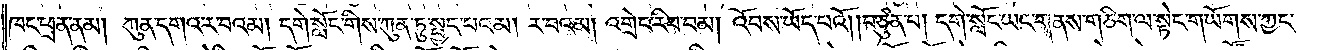ཁང་ཕྲན་ནམ། ཀུན་དགའ་ར་བའམ། དགེ་སློང་གིས་ཀུན་ཏུ་སྤྱད་པའམ། ར་བའམ། འགྲེང་རིབ་བམ། འོབས་ཡོད་པའོ། །བཙུན་པ། དགེ་སློང་ཡང་གནས་གཅིག་ལ་སྟེང་གཡོགས་ཀྱང་
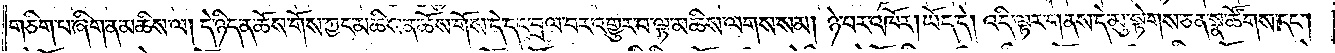གཅིག་པ་ཞིག་ན་མཆིས་ལ། དེ་ཉིད་ན་ཆོས་གོས་ཀྱང་མཆིས་ན་ཆོས་གོས་དེ་དང་བྲལ་བར་འགྱུར་བ་ལྟ་མཆིས་ལགས་སམ། ཉེ་བར་འཁོར། ཡོད་དེ། འདི་ལྟར་གནས་དེ་མུ་སྟེགས་ཅན་སྣ་ཚོགས་དང༌།
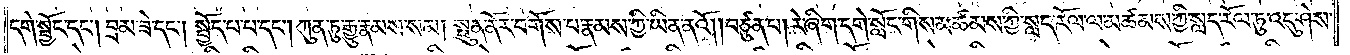དགེ་སྦྱོང་དང༌། བྲམ་ཟེ་དང༌། སྤྱོད་པ་དང༌། ཀུན་ཏུ་རྒྱུ་རྣམས་སམ། སྤུན་ནོར་བགོས་པ་རྣམས་ཀྱི་ཡིན་ནའོ། །བཙུན་པ། རེ་ཞིག་དགེ་སློང་གིས་མཚམས་ཀྱི་སླད་རོལ་ལ་མཚམས་ཀྱི་སླད་རོལ་ཏུ་འདུ་ཤེས་
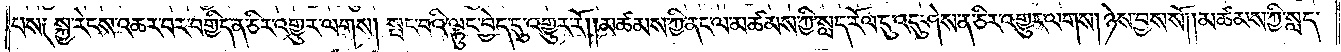པས༑ སྐྱ་རེངས་འཆར་བར་བགྱིད་ན་ཅིར་འགྱུར་ལགས། སྤང་བའི་ལྟུང་བྱེད་དུ་འགྱུར་རོ། །མཚམས་ཀྱི་ནང་ལ་མཚམས་ཀྱི་སླད་རོལ་དུ་འདུ་ཤེས་ན་ཅིར་འགྱུར་ལགས། ཉེས་བྱས་སོ། །མཚམས་ཀྱི་སླད་
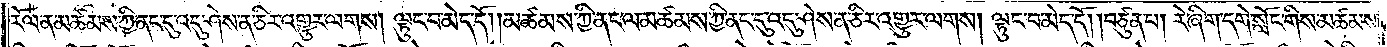རོལ་ན་མཚམས་ཀྱི་ནང་དུ་འདུ་ཤེས་ན་ཅིར་འགྱུར་ལགས། ལྟུང་བ་མེད་དོ། །མཚམས་ཀྱི་ནང་ལ་མཚམས་ཀྱི་ནང་དུ་འདུ་ཤེས་ན་ཅིར་འགྱུར་ལགས། ལྟུང་བ་མེད་དོ། །བཙུན་པ། རེ་ཞིག་དགེ་སློང་གིས་མཚམས་
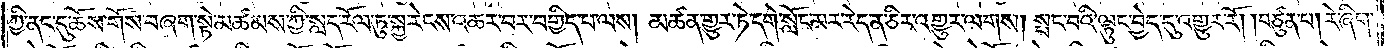ཀྱི་ནང་དུ་ཆོས་གོས་བཞག་སྟེ་མཚམས་ཀྱི་སླད་རོལ་ཏུ་སྐྱ་རེངས་འཆར་བར་བགྱིད་པ་ལས། མཚན་གྱུར་ཏེ་དགེ་སློང་མར་རེད་ན་ཅིར་འགྱུར་ལགས། སྤང་བའི་ལྟུང་བྱེད་དུ་འགྱུར་རོ། །བཙུན་པ། རེ་ཞིག་
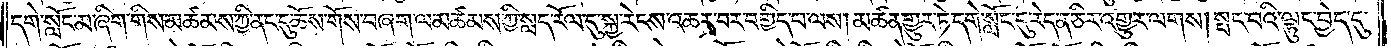དགེ་སློང་མ་ཞིག་གིས་མཚམས་ཀྱི་ནང་དུ་ཆོས་གོས་བཞག་ལ་མཚམས་ཀྱི་སླད་རོལ་ཏུ་སྐྱ་རེངས་འཆར་བར་བགྱིད་པ་ལས། མཚན་གྱུར་ཏེ་དགེ་སློང་དུ་རེད་ན་ཅིར་འགྱུར་ལགས། སྤང་བའི་ལྟུང་བྱེད་དུ་
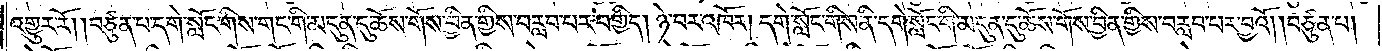འགྱུར་རོ། །བཙུན་པ་དགེ་སློང་གིས་གང་གི་མདུན་དུ་ཆོས་གོས་བྱིན་གྱིས་བརླབ་པར་བགྱིད། ཉེ་བར་འཁོར། དགེ་སློང་གིས་ནི་དགེ་སློང་གི་མདུན་དུ་ཆོས་གོས་བྱིན་གྱིས་བརླབ་པར་བྱའོ། །བཙུན་པ།
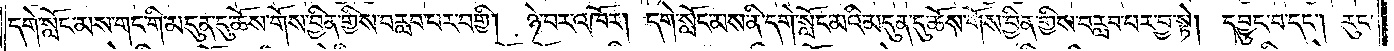དགེ་སློང་མས་གང་གི་མདུན་དུ་ཆོས་གོས་བྱིན་གྱིས་བརླབ་པར་བགྱི། ཉེ་བར་འཁོར། དགེ་སློང་མས་ནི་དགེ་སློང་མའི་མདུན་དུ་ཆོས་གོས་བྱིན་གྱིས་བརླབ་པར་བྱ་སྟེ། དབྱུང་བ་དང༌། རུང་
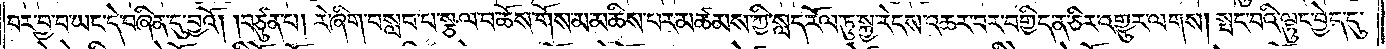བར་བྱ་བ་ཡང་དེ་བཞིན་དུ་བྱའོ། །བཙུན་པ། རེ་ཞིག་བསླབ་པ་སྩལ་བ་ཆོས་གོས་མ་མཆིས་པར་མཚམས་ཀྱི་སླད་རོལ་ཏུ་སྐྱ་རེངས་འཆར་བར་བགྱིད་ན་ཅིར་འགྱུར་ལགས། སྤང་བའི་ལྟུང་བྱེད་དུ་
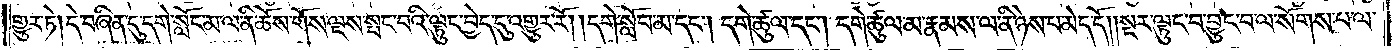གྱུར་ཏེ། དེ་བཞིན་དུ་དགེ་སློང་མ་ལ་ནི་ཆོས་གོས་ལྔས་སྤང་བའི་ལྟུང་བྱེད་དུ་འགྱུར་རོ། །དགེ་སློབ་མ་དང༌། དགེ་ཚུལ་དང༌། དགེ་ཚུལ་མ་རྣམས་ལ་ནི་ཉེས་པ་མེད་དོ། །སྔར་ལྟུང་བ་བྱུང་བ་ལ་སོགས་པ་ལ་
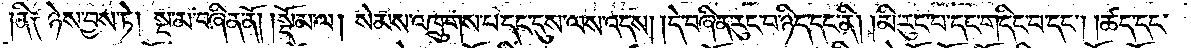ནི༑ ཉེས་བྱས་ཏེ། སྔ་མ་བཞིན་ནོ།    །སྡོམ་ལ། སེམས་འཁྲུགས་པ་དང་དུས་ལས་འདས། དེ་བཞིན་རུང་བ་ཉིད་དང་ནི། མི་རུང་པ་དང་གདིང་བ་དང༌། །ཚད་དང་
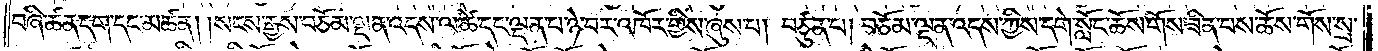བཞི་ཚན་དག་དང་མཚན། །སངས་རྒྱས་བཅོམ་ལྡན་འདས་ལ་ཚེ་དང་ལྡན་པ་ཉེ་བར་འཁོར་གྱིས་ཞུས་པ། བཙུན་པ། བཅོམ་ལྡན་འདས་ཀྱིས་དགེ་སློང་ཆོས་གོས་ཟིན་པས་ཆོས་གོས་སྲ་
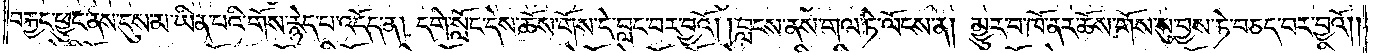བརྐྱང་ཕྱུང་ནས་དུས་མ་ཡིན་པའི་གོས་རྙེད་པ་འདོད་ན། དགེ་སློང་དེས་ཆོས་གོས་དེ་བླང་བར་བྱའོ། །བླངས་ནས་གལ་ཏེ་ལོངས་ན། མྱུར་བ་ཁོ་ནར་ཆོས་གོས་སུ་བྱས་ཏེ་བཅད་པར་བྱའོ། །
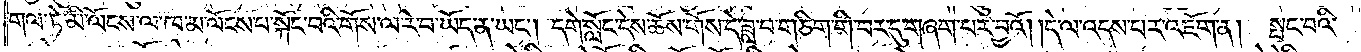གལ་ཏེ་མི་ལོངས་ལ་ཁ་མ་ལོངས་པ་སྐོང་པའི་གོས་ལ་རེ་བ་ཡོད་ན་ཡང༌། དགེ་སློང་དེས་ཆོས་གོས་དེ་ཟླ་བ་གཅིག་གི་བར་དུ་གཞག་པར་བྱའོ། །དེ་ལ་འདས་པར་འཇོག་ན། སྤང་བའི་
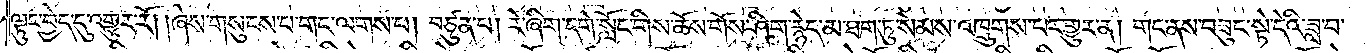ལྟུང་བྱེད་དུ་འགྱུར་རོ། །ཞེས་གསུངས་པ་གང་ལགས་པ། བཙུན་པ། རེ་ཞིག་དགེ་སློང་གིས་ཆོས་གོས་ཤིག་རྙེད་མ་ཐག་ཏུ་སེམས་འཁྲུགས་པར་གྱུར་ན། གང་ནས་བཟུང་སྟེ་དེའི་ཟླ་བ་
